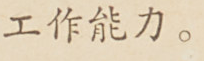工作能力。
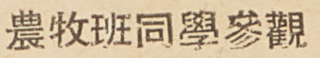農牧班同學參觀
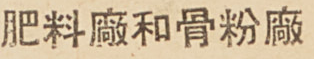肥料廠和骨粉廠
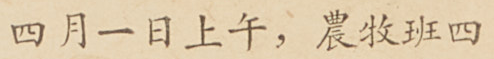四月一日上午，農牧班四
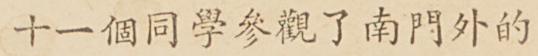十一個同學參觀了南門外的
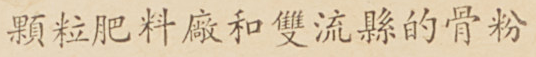顆粒肥料廠和雙流縣的骨粉
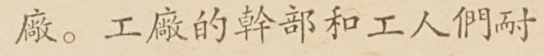廠。工廠的幹部和工人們耐
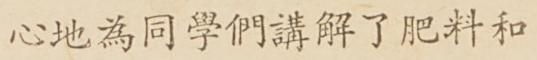心地為同學們講解了肥料和
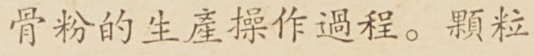骨粉的生產操作過程。顆粒
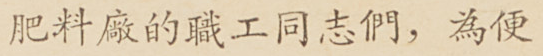肥料廠的職工同志們，為便
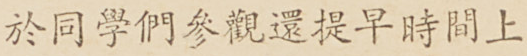於同學們參觀還提早時間上
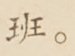班。
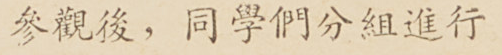參觀後，同學們分組進行
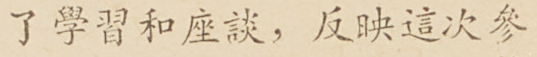了學習和座談，反映這次參
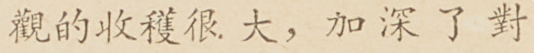觀的收穫很大，加深了對
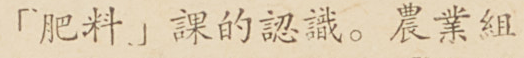「肥料」課的認識。農業組
